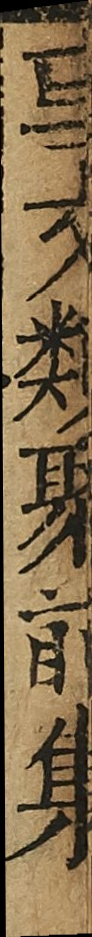事文類聚前集
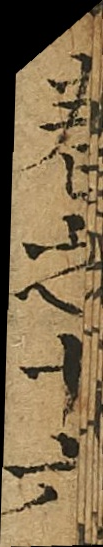卷之十六
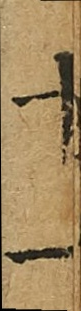十一
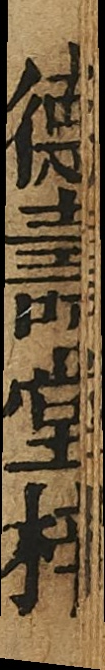德壽堂梓
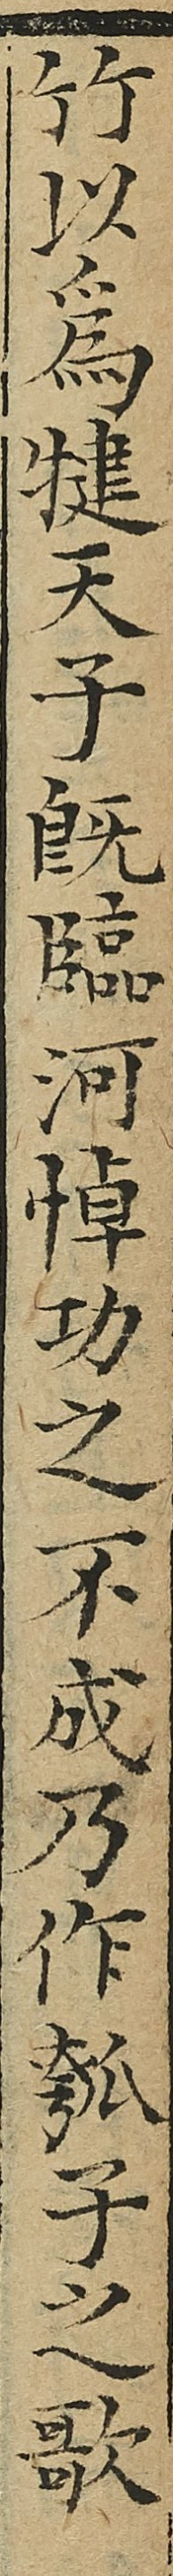竹以為犍天子旣臨河悼功之不成乃作瓠子之歌
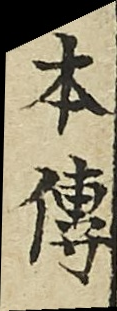本傳
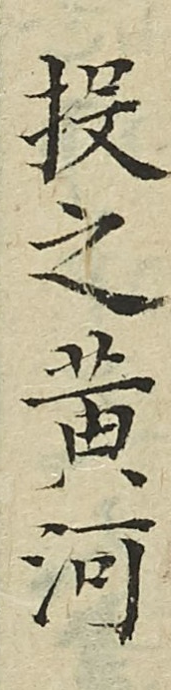投之黄河
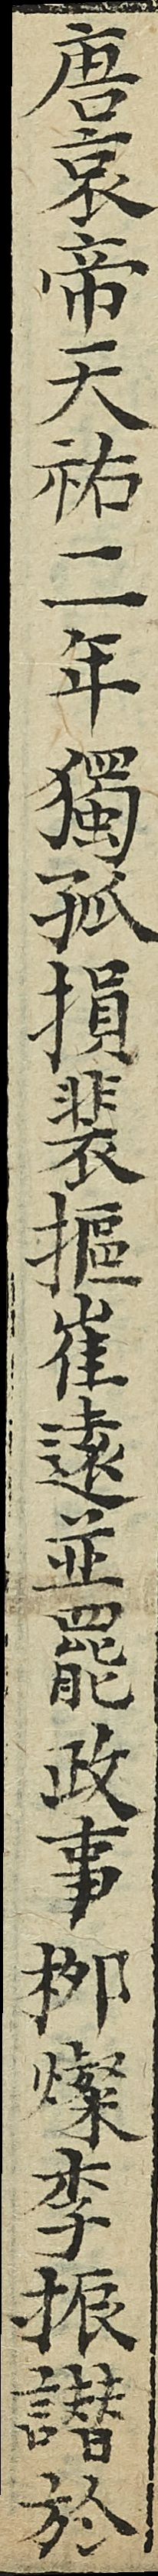唐哀帝天祐二年獨孤損裴摳崔逺並罷政事栁璨李振譖於
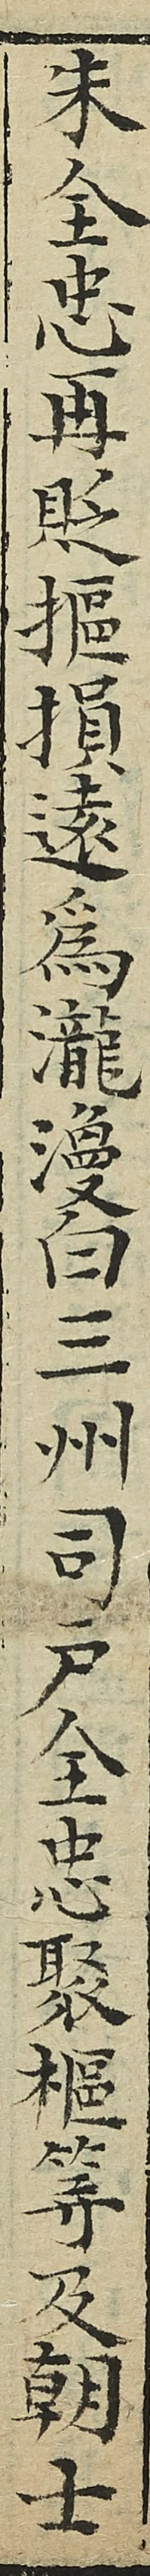朱全忠再貶摳損逺為瀧瓊白三州司户全忠聚樞等及朝士
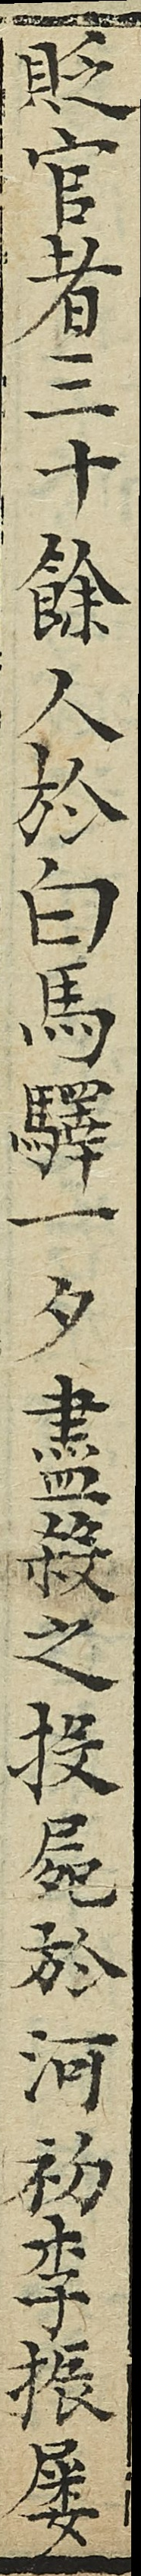貶官者三十餘人於白馬驛一夕盡殺之投屍於河初李振屢
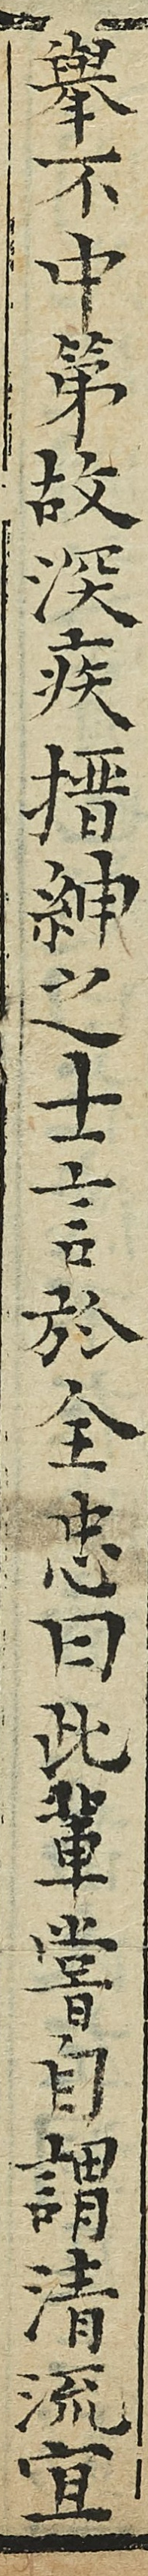舉不中第故深疾搢紳之士言於全忠曰此輩常自謂清流宜
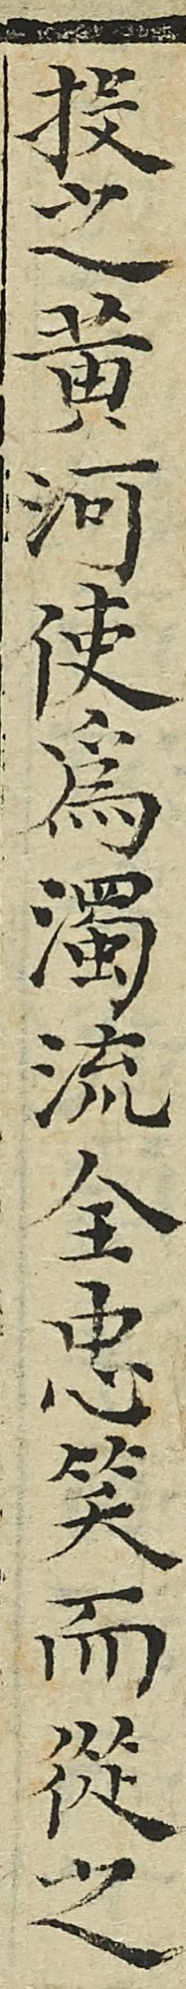投之黄河使為濁流全忠笑而從之
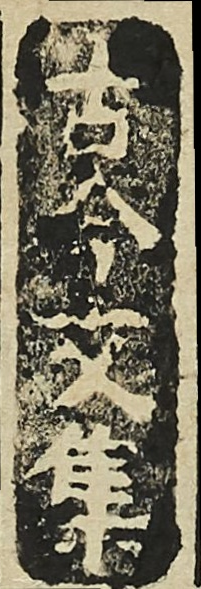古今文集
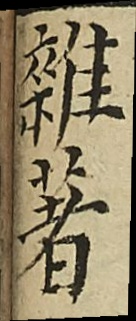雜著
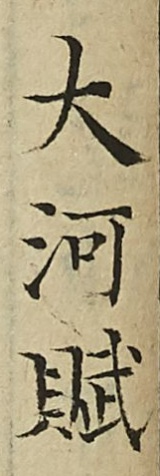大河賦
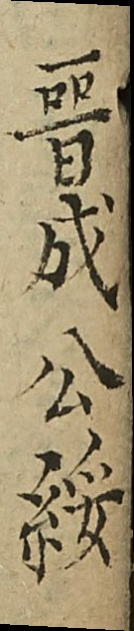晉成公綏
